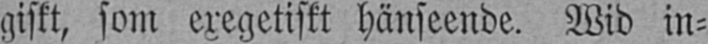giskt, som exegetiskt hänseende. Wid in-
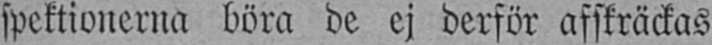spektionerna böra de ej derför afsträckas
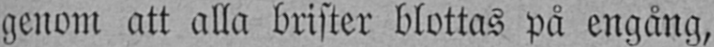genom att alla brister blottas på engång,
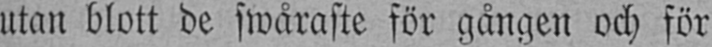utan blott de swåraste för gången och för
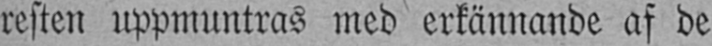resten uppmuntras med erkännande af de
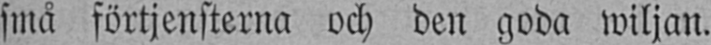små förtjensterna och den goda wiljan.
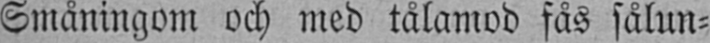Småningom och med tålamod fås sålun-
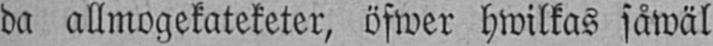da allmogekateketer, öfwer hwilkas såwäl
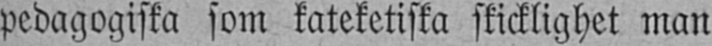pedagogiska som kateketiska skicklighet man
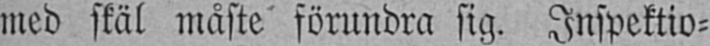med skäl måste förundra sig. Inspektio-
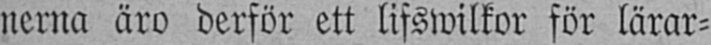nerna äro derför ett lifswilkor för lärar-
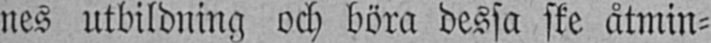nes utbildning och böra dessa ske åtmin-
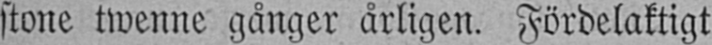stone twenne gånger årligen. Fördelaktigt
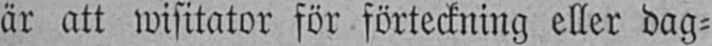är att wisitator för förteckning eller dag-
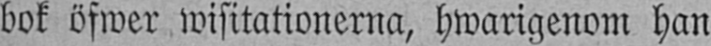bok öfwer wisitationerna, hwarigenom han
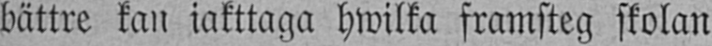bättre kan iakttaga hwilka framsteg skolan
